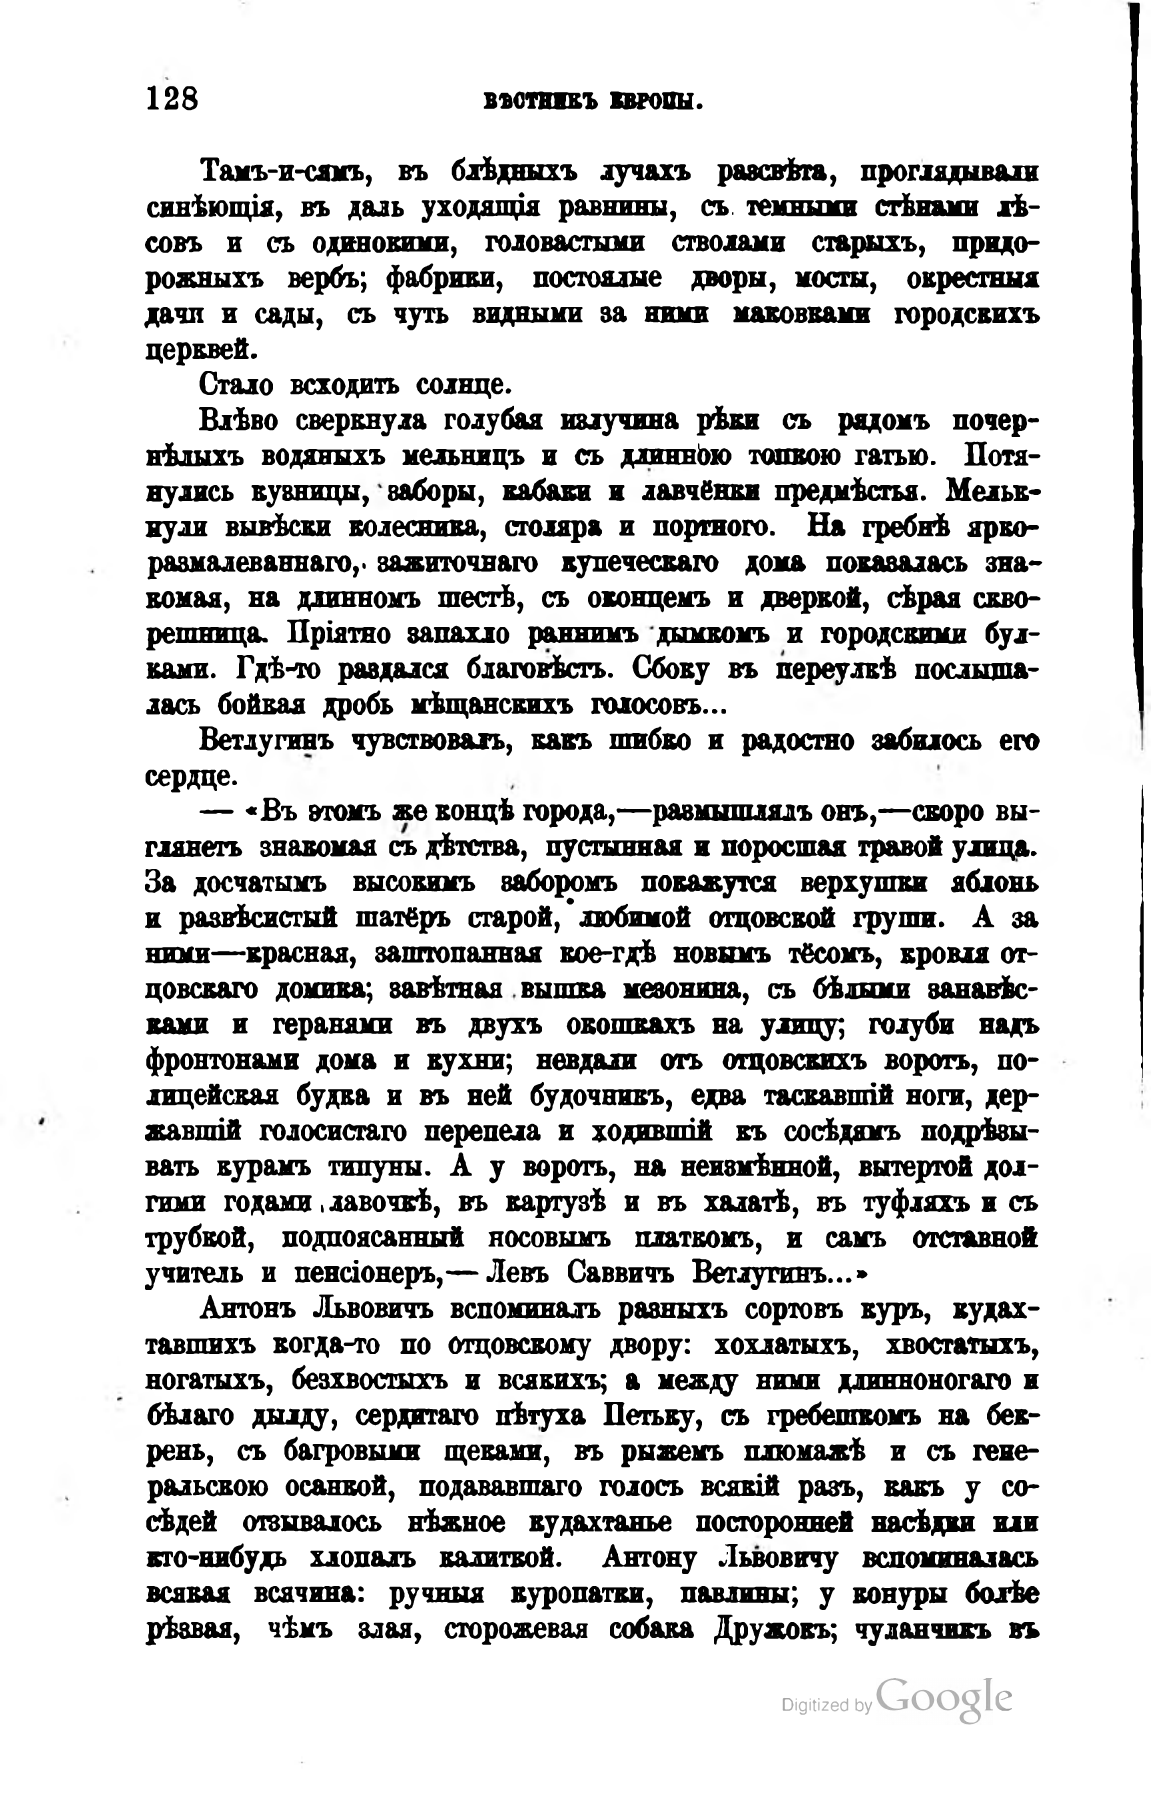128                     ВѢСТНИКЪ ЕВРОПЫ.
Тамъ-и-сямъ, въ блѣдныхъ лучахъ разсвѣта, проглядывали синѣющія, въ даль уходящія равнины, съ темными стѣнами лѣсовъ и съ одинокими, головастыми стволами старыхъ, придорожныхъ вербъ; фабрики, постоялые дворы, мосты, окрестныя дачи и сады, съ чуть видными за ними маковками городскихъ церквей.
Стало всходить солнце.
Влѣво сверкнула голубая излучина рѣки съ рядомъ почернѣлыхъ водяныхъ мельницъ и съ длинною топкою гатью. Потянулись кузницы, заборы, кабаки и лавчёнки предмѣстья. Мелькнули вывѣски колесника, столяра и портного. На гребнѣ яркоразмалеваннаго, зажиточнаго купеческаго дома показалась знакомая, на длинномъ шестѣ, съ оконцемъ и дверкой, сѣрая скворешница. Пріятно запахло раннимъ дымкомъ и городскими булками. Гдѣ-то раздался благовѣстъ. Сбоку въ переулкѣ послышалась бойкая дробь мѣщанскихъ голосовъ...
Ветлугинъ чувствовалъ, какъ шибко и радостно забилось его сердце.
— «Въ этомъ же концѣ города, — размышлялъ онъ, — скоро выглянетъ знакомая съ дѣтства, пустынная и поросшая травой улица. За досчатымъ высокимъ заборомъ покажутся верхушки яблонь и развѣсистый шатёръ старой, любимой отцовской груши. А за ними — красная, заштопанная кое-гдѣ новымъ тёсомъ, кровля отцовскаго домика; завѣтная вышка мезонина, съ бѣлыми занавѣсками и геранями въ двухъ окошкахъ на улицу; голуби надъ фронтонами дома и кухни; невдали отъ отцовскихъ воротъ, полицейская будка и въ ней будочникъ, едва таскавшій ноги, державшій голосистаго перепела и ходившій къ сосѣдямъ подрѣзывать курамъ типуны. А у воротъ, на неизмѣнной, вытертой долгими годами лавочкѣ, въ картузѣ и въ халатѣ, въ туфляхъ и съ трубкой, подпоясанный носовымъ платкомъ, и самъ отставной учитель и пенсіонеръ, — Левъ Саввичъ Ветлугинъ...»
Антонъ Львовичъ вспоминалъ разныхъ сортовъ куръ, кудахтавшихъ когда-то по отцовскому двору: хохлатыхъ, хвостатыхъ, ногатыхъ, безхвостыхъ и всякихъ; а между ними длинноногаго и бѣлаго дылду, сердитаго пѣтуха Петьку, съ гребешкомъ на бекрень, съ багровыми щеками, въ рыжемъ плюмажѣ и съ генеральскою осанкой, подававшаго голосъ всякій разъ, какъ у сосѣдей отзывалось нѣжное кудахтанье посторонней насѣдки или кто-нибудь хлопалъ калиткой. Антону Львовичу вспоминалась всякая всячина: ручныя куропатки, павлины; у конуры болѣе рѣзвая, чѣмъ злая, сторожевая собака Дружокъ; чуланчикъ въ
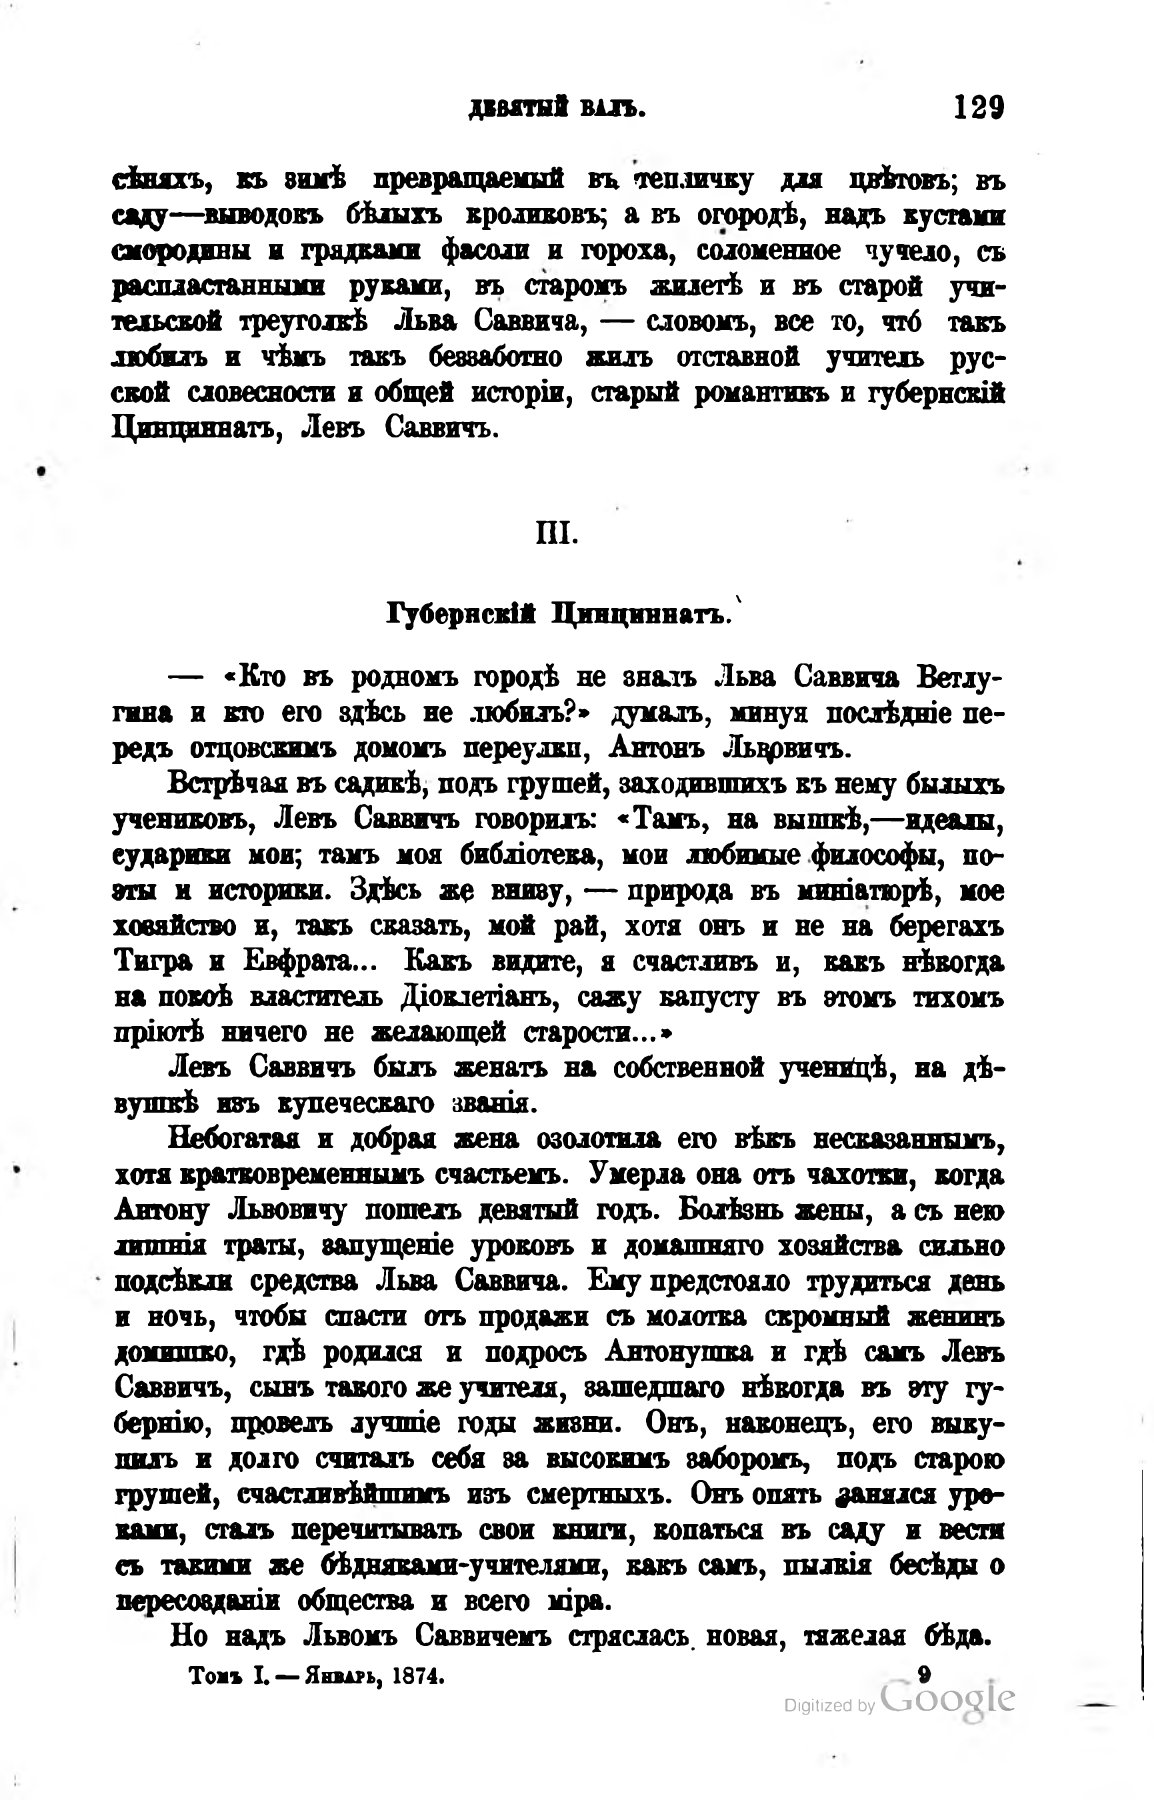ДЕВЯТЫЙ ВАЛЪ.                        129
сѣняхъ, къ зимѣ превращаемый въ тепличку для цвѣтовъ; въ саду — выводокъ бѣлыхъ кроликовъ; а въ огородѣ, надъ кустами смородины и грядками фасоли и гороха, соломенное чучело, съ распластанными руками, въ старомъ жилетѣ и въ старой учительской треуголкѣ Льва Саввича, — словомъ, все то, что такъ любилъ и чѣмъ такъ беззаботно жилъ отставной учитель русской словесности и общей исторіи, старый романтикъ и губернскій Цинциннатъ, Левъ Саввичъ.
III.
Губернскій Цинциннатъ.
— «Кто въ родномъ городѣ не зналъ Льва Саввича Ветлугина и кто его здѣсь не любилъ?» думалъ, минуя послѣдніе передъ отцовскимъ домомъ переулки, Антонъ Львовичъ.
Встрѣчая въ садикѣ, подъ грушей, заходившихъ къ нему былыхъ учениковъ, Левъ Саввичъ говорилъ: «Тамъ, на вышкѣ, — идеалы, сударики мои; тамъ моя библіотека, мои любимые философы, поэты и историки. Здѣсь же внизу, — природа въ миніатюрѣ, мое хозяйство и, такъ сказать, мой рай, хотя онъ и не на берегахъ Тигра и Евфрата... Какъ видите, я счастливъ и, какъ нѣкогда на покоѣ властитель Діоклетіанъ, сажу капусту въ этомъ тихомъ пріютѣ ничего не желающей старости...»
Левъ Саввичъ былъ женатъ на собственной ученицѣ, на дѣвушкѣ изъ купеческаго званія.
Небогатая и добрая жена озолотила его вѣкъ несказаннымъ, хотя кратковременнымъ счастьемъ. Умерла она отъ чахотки, когда Антону Львовичу пошелъ девятый годъ. Болѣзнь жены, а съ нею лишнія траты, запущеніе уроковъ и домашняго хозяйства сильно подсѣкли средства Льва Саввича. Ему предстояло трудиться день и ночь, чтобы спасти отъ продажи съ молотка скромный женинъ домишко, гдѣ родился и подросъ Антонушка и гдѣ самъ Левъ Саввичъ, сынъ такого же учителя, зашедшаго нѣкогда въ эту губернію, провелъ лучшіе годы жизни. Онъ, наконецъ, его выкупилъ и долго считалъ себя за высокимъ заборомъ, подъ старою грушей, счастливѣйшимъ изъ смертныхъ. Онъ опять занялся уроками, сталъ перечитывать свои книги, копаться въ саду и вести съ такими же бѣдняками-учителями, какъ самъ, пылкія бесѣды о пересозданіи общества и всего міра.
Но надъ Львомъ Саввичемъ стряслась новая, тяжелая бѣда.
Томъ I. — Январь, 1874.                           
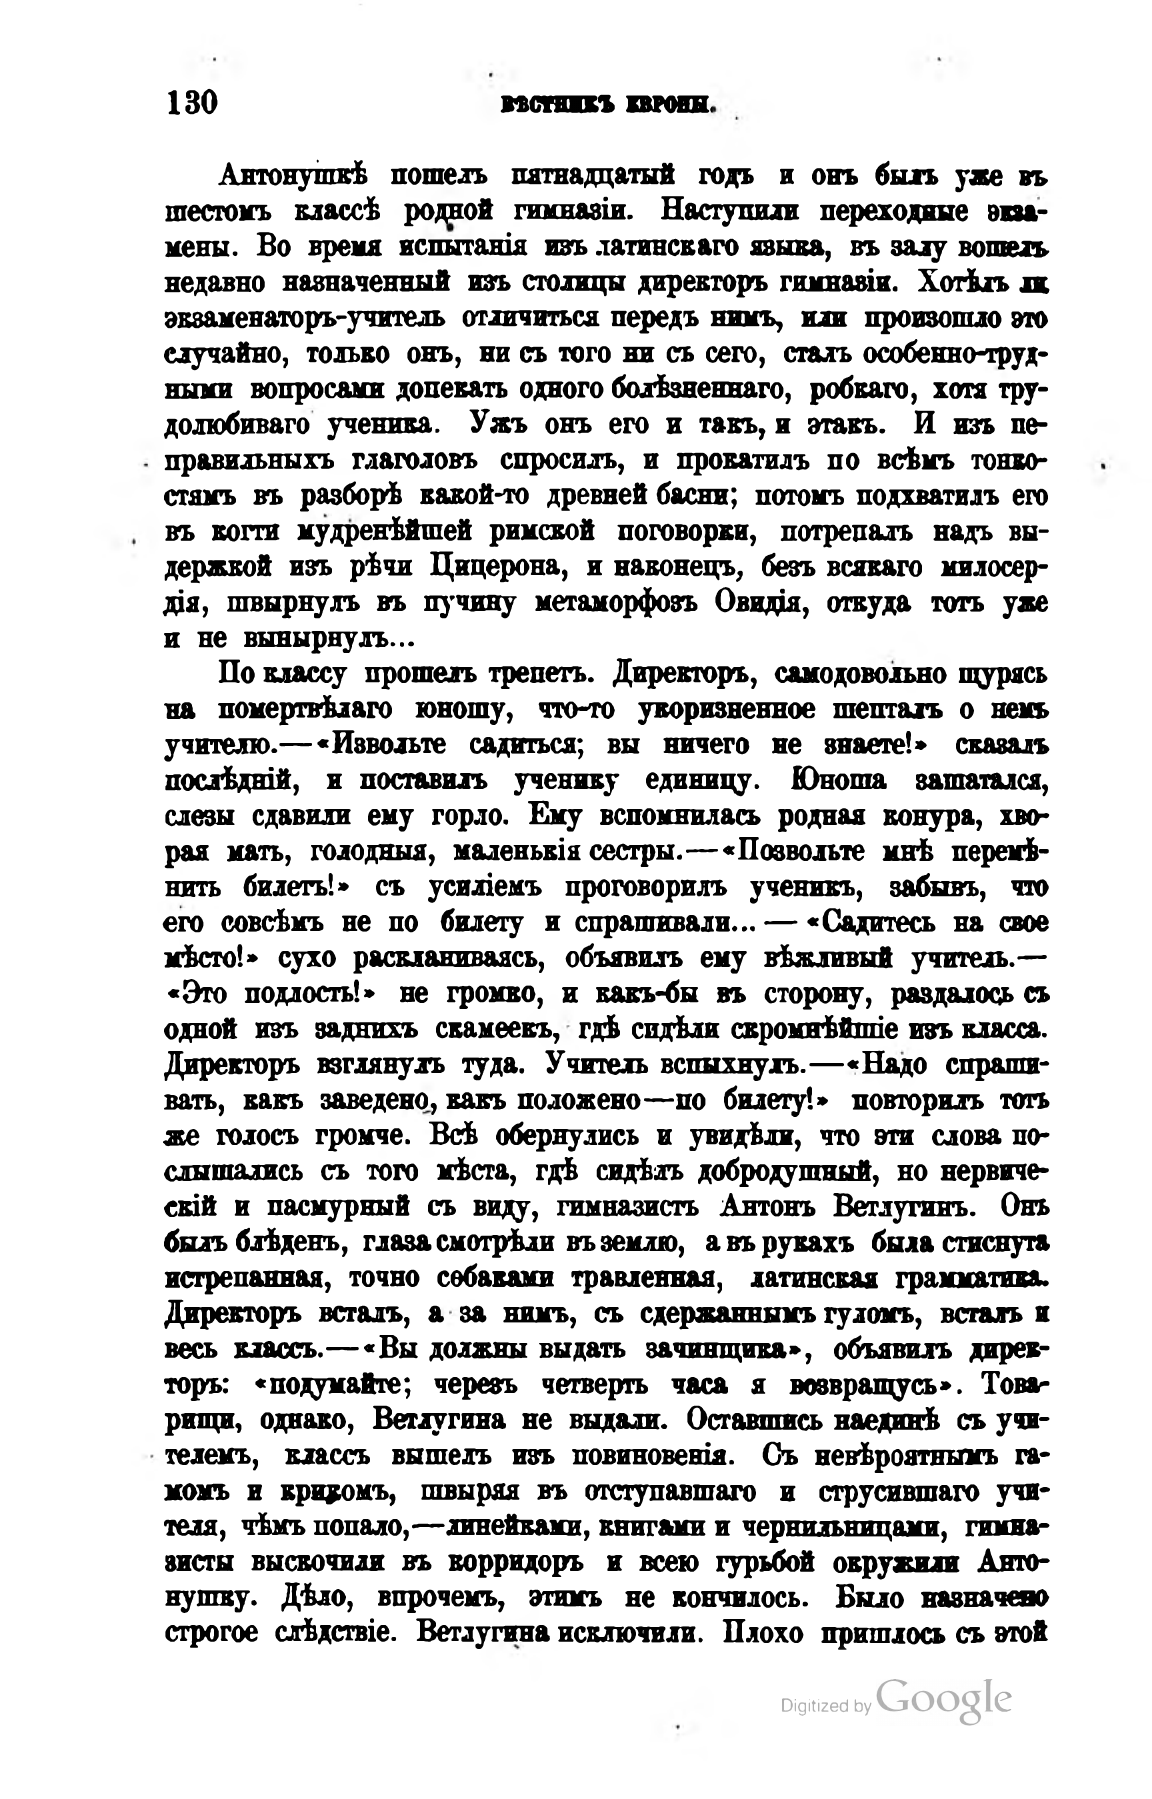130                      ВѢСТНИКЪ ЕВРОПЫ.
Антонушкѣ пошелъ пятнадцатый годъ и онъ былъ уже въ шестомъ классѣ родной гимназіи. Наступили переходные экзамены. Во время испытанія изъ латинскаго языка, въ залу вошелъ недавно назначенный изъ столицы директоръ гимназіи. Хотѣлъ ли экзаменаторъ-учитель отличиться передъ нимъ, или произошло это случайно, только онъ, ни съ того ни съ сего, сталъ особенно-трудными вопросами допекать одного болѣзненнаго, робкаго, хотя трудолюбиваго ученика. Ужъ онъ его и такъ, и этакъ. И изъ неправильныхъ глаголовъ спросилъ, и прокатилъ по всѣмъ тонкостямъ въ разборѣ какой-то древней басни; потомъ подхватилъ его въ когти мудренѣйшей римской поговорки, потрепалъ надъ выдержкой изъ рѣчи Цицерона, и наконецъ, безъ всякаго милосердія, швырнулъ въ пучину метаморфозъ Овидія, откуда тотъ уже и не вынырнулъ...
По классу прошелъ трепетъ. Директоръ, самодовольно щурясь на помертвѣлаго юношу, что-то укоризненное шепталъ о немъ учителю. — «Извольте садиться; вы ничего не знаете!» сказалъ послѣдній, и поставилъ ученику единицу. Юноша зашатался, слезы сдавили ему горло. Ему вспомнилась родная конура, хворая мать, голодныя, маленькія сестры. — «Позвольте мнѣ перемѣнить билетъ!» съ усиліемъ проговорилъ ученикъ, забывъ, что его совсѣмъ не по билету и спрашивали... — «Садитесь на свое мѣсто!» сухо раскланиваясь, объявилъ ему вѣжливый учитель. — «Это подлость!» не громко, и какъ-бы въ сторону, раздалось съ одной изъ заднихъ скамеекъ, гдѣ сидѣли скромнѣйшіе изъ класса. Директоръ взглянулъ туда. Учитель вспыхнулъ. — «Надо спрашивать, какъ заведено, какъ положено — по билету!» повторилъ тотъ же голосъ громче. Всѣ обернулись и увидѣли, что эти слова послышались съ того мѣста, гдѣ сидѣлъ добродушный, но нервическій и пасмурный съ виду, гимназистъ Антонъ Ветлугинъ. Онъ былъ блѣденъ, глаза смотрѣли въ землю, а въ рукахъ была стиснута истрепанная, точно собаками травленная, латинская грамматика. Директоръ всталъ, а за нимъ, съ сдержаннымъ гуломъ, всталъ и весь классъ. — «Вы должны выдать зачинщика», объявилъ директоръ: «подумайте; черезъ четверть часа я возвращусь». Товарищи, однако, Ветлугина не выдали. Оставшись наединѣ съ учителемъ, классъ вышелъ изъ повиновенія. Съ невѣроятнымъ гамомъ и крикомъ, швыряя въ отступавшаго и струсившаго учителя, чѣмъ попало, — линейками, книгами и чернильницами, гимназисты выскочили въ корридоръ и всею гурьбой окружили Антонушку. Дѣло, впрочемъ, этимъ не кончилось. Было назначено строгое слѣдствіе. Ветлугина исключили. Плохо пришлось съ этой